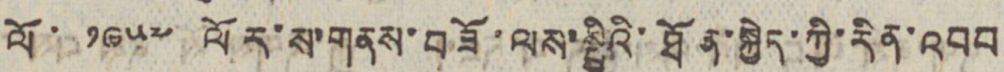ལོ་ ༡༩༥༧ ལོར་ས་གནས་བཟོ་ལས་སྤྱིའི་ཐོན་སྐྱེད་ཀྱི་རིན་འབབ
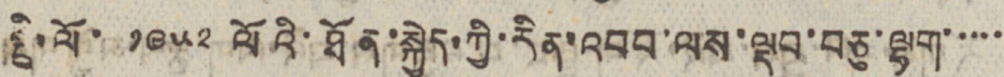སྤྱི་ལོ་ ༡༩༥༢ ལོའི་ཐོན་སྐྱེད་ཀྱི་རིན་འབབ་ལས་ལྡབ་བཅུ་ལྷག་་་་་
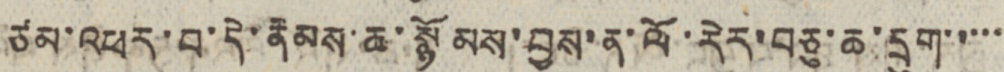ཙམ་འཕར་བ་དེ་རྣམས་ཆ་སྙོམས་བྱས་ན་ལོ་རེར་བཅུ་ཆ་དྲུག་་་་་
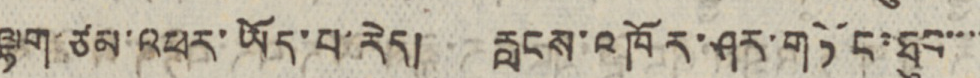ལྷག་ཙམ་འཕར་ཡོད་པ་རེད། རླངས་འཁོར་ཤར་གཏོང་ཐུབ་་་་
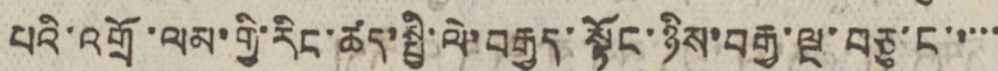པའི་འགྲོ་ལམ་གྱི་རིང་ཚད་སྤྱི་ལེ་བརྒྱད་སྟོང་ཉིས་བརྒྱ་ལྔ་བཅུ་ང་་་་་
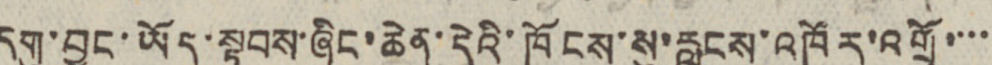དགུ་བྱུང་ཡོད་སྟབས་ཞིང་ཆེན་དེའི་ཁོངས་སུ་རླངས་འཁོར་འགྲོ་་་་
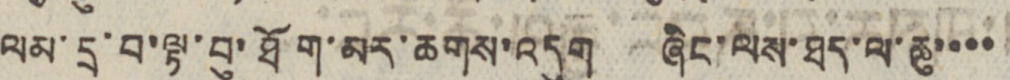ལམ་དྲ་བ་ལྟ་བུ་ཐོག་མར་ཆགས་འདུག ཞིང་ལས་ཐད་ལ་ཆུ་་་་
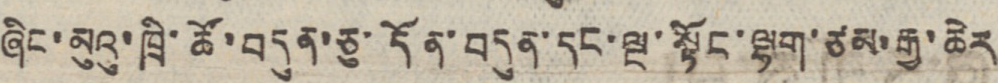ཞིང་མུའུ་ཁྲི་ཚོ་བདུན་ཅུ་དོན་བདུན་དང་ལྔ་སྟོང་ལྷག་ཙམ་རྒྱ་ཆེར
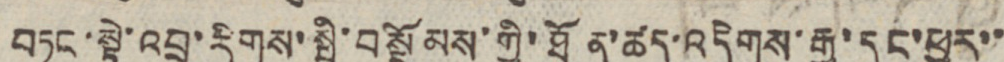བཏང་སྟེ་འབྲུ་རིགས་སྤྱི་བསྡོམས་ཀྱི་ཐོན་ཚད་འདིགས་རྒྱ་དུང་ཕྱུར་་
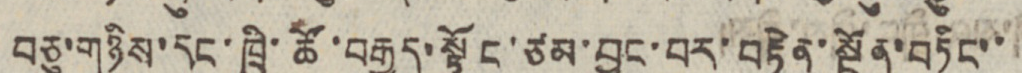བཅུ་གཉིས་དང་ཁྲི་ཚོ་བརྒྱད་སྟོང་ཙམ་བྱུང་བར་བརྟེན་སྔོན་བཏིང་་
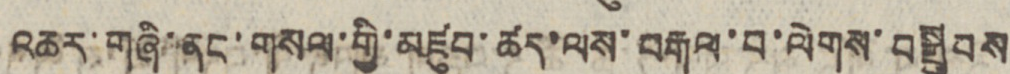འཆར་གཞི་ནང་གསལ་གྱི་མཛུབ་ཚད་ལས་བརྒལ་བ་ལེགས་བསྒྲུབས
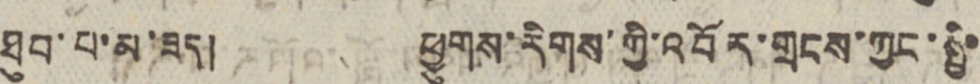ཐུབ་པ་མ་ཟད། ཕྱུགས་རིགས་ཀྱི་འབོར་གྲངས་ཀྱང་སྤྱི་་
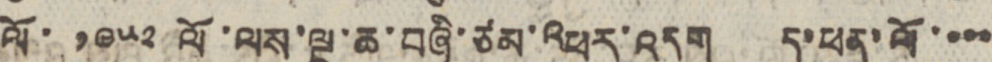ལོ་ ༡༩༥༢ ལོ་ལས་ལྔ་ཆ་བཞི་ཙམ་འཕར་འདུག ད་ཕན་ལོ་་་་
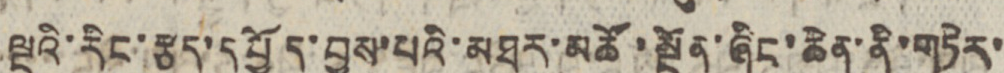ལྔའི་རིང་རྩད་དཔྱོད་བྱས་པའི་མཐར་མཚོ་སྔོན་ཞིང་ཆེན་ནི་གཏེར་
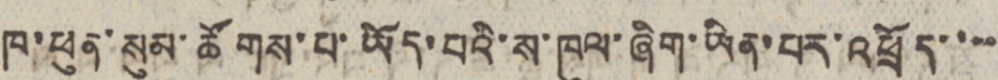ཁ་ཕུན་སུམ་ཚོགས་པ་ཡོད་པའི་ས་ཁུལ་ཞིག་ཡིན་པར་འཕྲོད་་་་
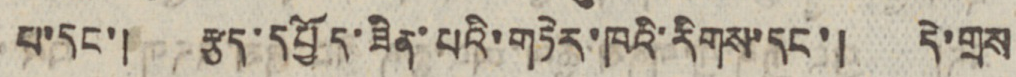པ་དང་། རྩད་དཔྱོད་ཟིན་པའི་གཏེར་ཁའི་རིགས་དང་། དེ་གྲས
